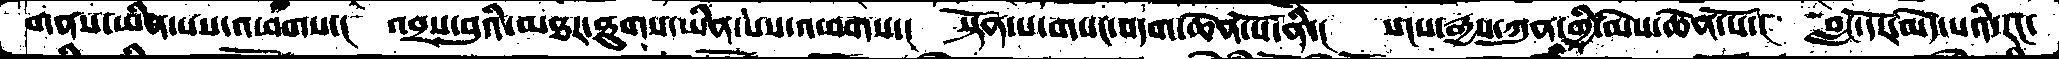གནས་ཡིན་པས་འཕགས་།  འབྲས་བུའི་མཐར་ཐུགས་ཡིན་པས་འཕགས་།  སྟོན་པ་གསང་བདག་ཆེན་པོ་ནི་།  སངས་རྒྱས་ཀུན་གྱི་མེས་ཆེན་པོ་།  བླང་དོར་མེད་པའི་རང་
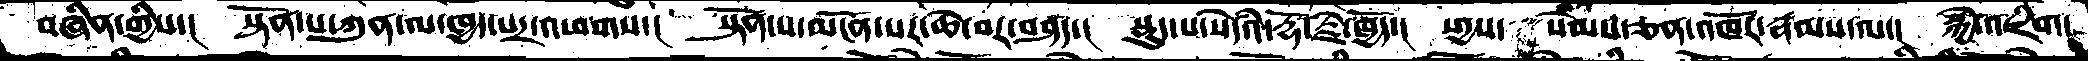བཞིན་གྱིས་།  སྟོན་པ་ཀུན་ལ་ཁྱད་པར་འཕགས་།  སྟོན་པ་མངོན་པར་ཆེ་བར་བཤད་།  སྡུད་པ་སེདཾའ་རྡོ་རྗེ་ཁྱོད་། སདྱས་ སེམས་ཅན་འཁོར་རྣམས་ལ་།  སྐྱེ་འཇིག་
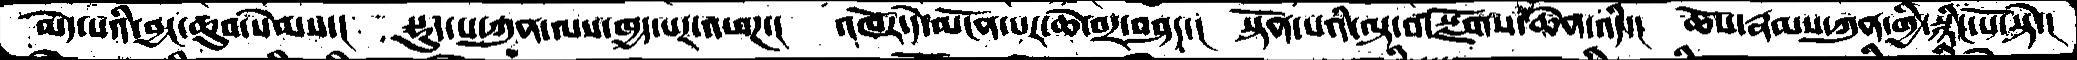མེད་པའི་བྱང་ཆུབ་སེམས་།  སྡུད་པ་ཀུན་ལས་ཁྱད་པར་འཕཌ་།  འཁོར་དེ་མངོན་པར་ཆེ་བར་བཤད་།  སྟོན་པའི་ལྟ་བ་སྫོགས་ཆེན་འདི་།  ཆོས་རྣམས་ཀུན་གྱི་སྙིང་པོ་སྟེ་།
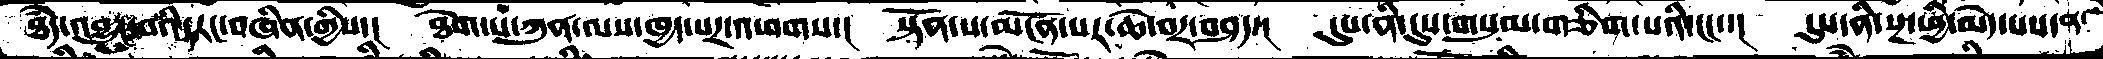ཐཾད་འབྱུང་བའི་རང་བཞིན་གྱིས་།  ཐེག་པ་ཀུན་ལས་ཁྱད་པར་འཕགས་།  སྟོན་པ་མངོན་པར་ཆེ་བར་བཤད་།  དུས་ནི་དུས་གསུམ་གཅིག་པའི་ངང་་།  དུས་ནི་སྔ་ཕྱི་མེད་པས་ན་
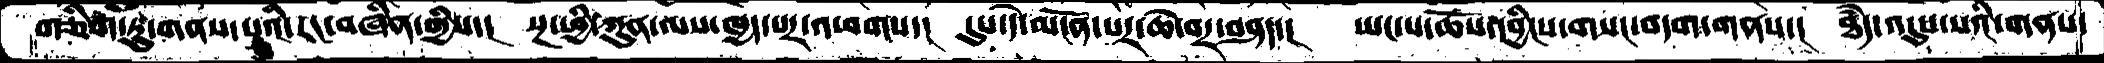གཅིག་ཏུ་གནས་པའི་རང་བཞིན་གྱིས་།  སྔ་ཕྱི་ཀུན་ལས་ཁྱད་པར་འཕགས་།  དུས་དེ་མངོན་པར་ཆེ་བར་བཤད་།  ཡང་པ་ཆོས་དབྱིངས་གསང་བདག་གནས་།  ཐཾད་འདུས་པའི་གནས་
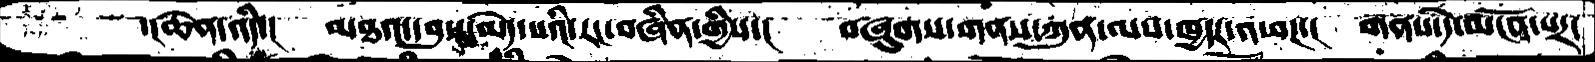་།ཆེན་འདི་།  མཐའ་དབུས་མེད་པའི་རང་བཞིན་གྱིས་།  བཞུགས་གནས་ཀུན་ལས་ཁྱདར་འཕཌ་།  གནས་དེ་མངོན་པར་
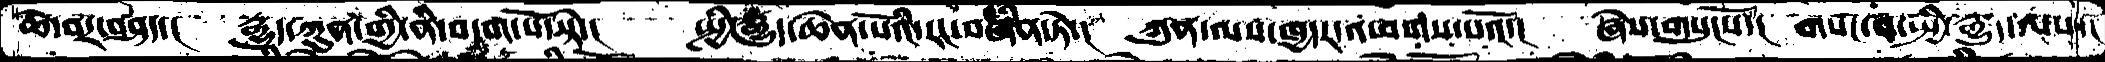ཆེ་བར་བཤད་།  རྒྱུད་ཀུན་གྱི་ནི་བདག་པོ་སྟེ་།  སྤྱི་རྒྱུད་ཆེན་པོའི་རང་བཞིན་ཏེ་།  ཀུན་ལས་ཁྱདར་འཕགས་པའོ་།  ཞེས་གསུངསོ་།  གསང་བ་སྤྱི་རྒྱུད་ལས་།
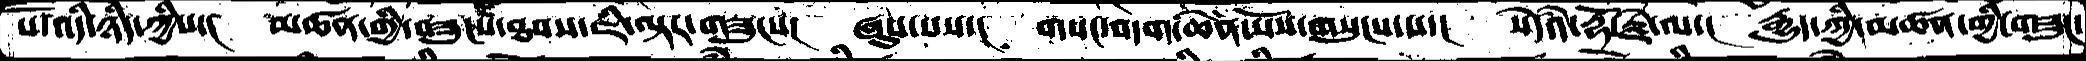པོ་འདི་ཉིད་ཀྱིས་།  མཚན་གྱི་བཟུངས་ཐབས་ཇི་ལྟར་གཟུངས་།  ཞུས་པས་།  གསང་བདག་ཆེན་པོས་གསུངས་པ་།  སེདཾའ་རྡོ་རྗེ་ལ་།  རྒྱུད་ཀྱི་མཚན་གྱི་གཟུང་
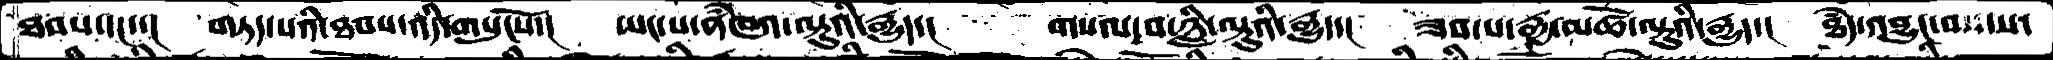ཐབས་དང་་།  གཏད་པའི་ཐབས་འདི་གསུངསོ་།  ཡང་པ་ནཾཁའ་ལྟུའི་རྒྱུད་།   གསལ་བ་ཉླི་ལྟུའི་རྒྱུད་།  ཟབ་པ་རྒྱ་མཚོ་ལྟུའི་རྒྱུད་།  ཐཾད་འབྱུང་བས་ས་
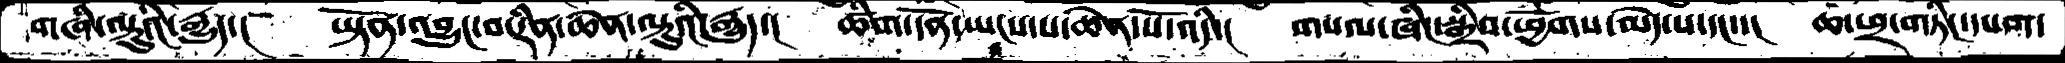གཞི་ལྟུའི་རྒྱུད་།  ཡྟོན་འབྱུང་བ་རིན་ཆེན་ལྟུའི་རྒྱུད་།  ཚིག་དོན་ཡངས་པ་ཆེན་པོ་འདི་།  གསལ་ཞིང་སྒྲིབ་ཕྱོགས་མེད་པ་དང་་།  ཆ་ཕྲ་གཏིང་དཔག་
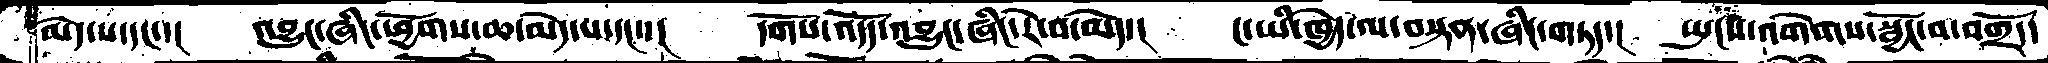མེད་པ་དང་་།  འབྱུང་ཞིང་ཕྱོགས་ཆ་མེད་པ་དང་་།  དགོས་འདོད་འབྱུང་ཞིང་རེ་བ་མེད་།  ང་ཡི་ཁྱེད་ལ་བསྟན་ཞིང་གཏད་།  སྤངས་འགེགས་སྦྱོང་བ་བགྲོད་
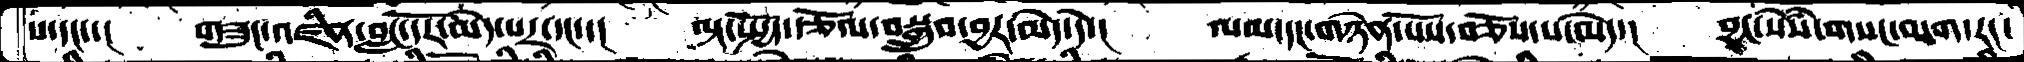པ་དང་་།  གཟུང་འཛིན་བླང་དོར་མེད་པར་དང་་།  ལྟ་སྤྱོད་རྩོལ་བསྒྲུབ་བྱར་མེད་དེ་།  ལམ་དང་གཉེན་པོས་བཅོས་པ་མེད་།  བྱང་སེཾས་གསང་བདག་རང་
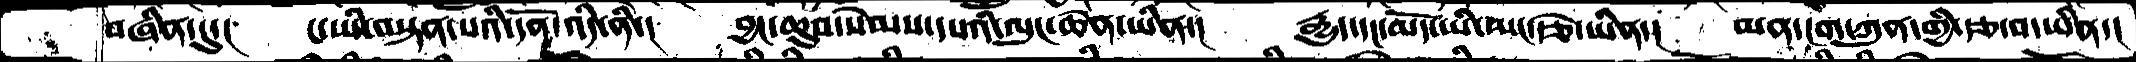བཞིན་དུ་།  ང་ཡི་བསྟན་པའི་དོན་འདི་ནི་།  བྱང་ཆུབ་སེམས་དཔའི་ལུང་ཆེན་ཡིན་།  རྒྱུད་དང་མདོ་ཡི་ཡང་རྩེ་ཡིན་།  མན་ངག་ཀུན་གྱི་རྩ་བ་ཡིན་།
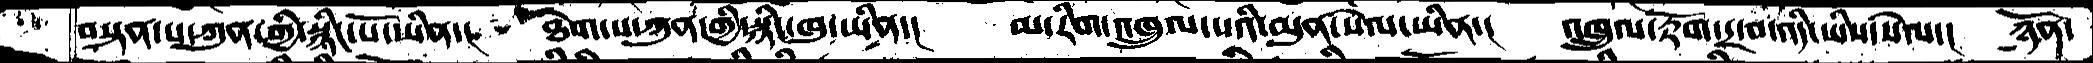བསྟན་པ་ཀུན་གྱི་སྙིང་པོ་ཡིན་།  ཐེག་པ་ཀུན་གྱི་སྙིང་ཁུ་ཡིན་།  མ་རིག་འཁྲུལ་པའི་མུན་སེལ་ཡིན་།  འཁྲུལ་རྟོག་དྲ་བ་འདི་ཡིས་སེལ་།  ཉོན་
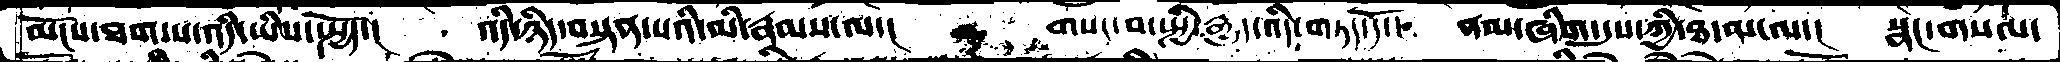མོངས་ཐག་པ་འདི་ཡིས་སྤྱོད་།   འདི་ཉིད་བསྟན་པའི་མི་རྣམས་ལ་།   གསང་བ་སྤྱི་རྒྱུད་འདི་གཏད་དོ་།  ནམ་ཞིག་དུས་ཀྱི་ཐ་མ་ལ་།  སྣང་གསལ་
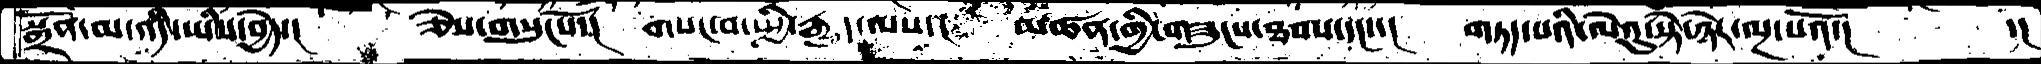སྒྲོན་མ་འདི་ཡིས་བྱེད་།    ཅེས་གསུངསོ་།   གསང་བ་སྤྱི་རྒྱུད་ལས་།  མཚན་གྱི་གཟུངས་ཐབས་དང་་།  གཏད་པའི་ལེའུ་སྟེ་ཉེར་ལྔ་པའོ་།     ་།
